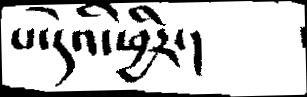པ་དེའི་ཕྱིར་།
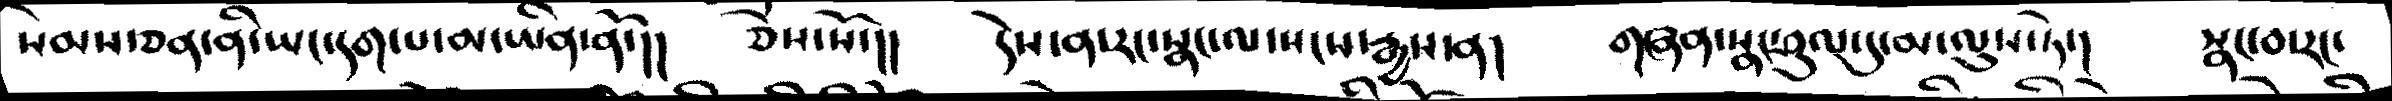སེམས་ཅན་ནི་ཡང་དག་པ་མ་ཡིན་ནོ་།།   ཅེས་སོ་།།    དེས་ན་རང་སྣང་ལ་སངས་རྒྱས་ན།     གཞན་སྣང་ཤུལ་དུ་མ་ལུས་ཏེ་།   སྣང་བ་རང་
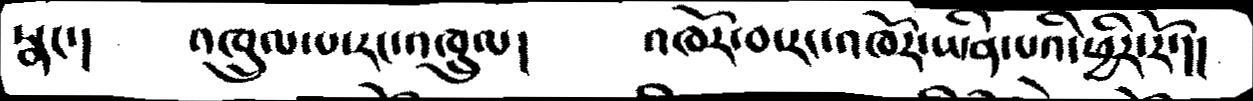སྣང་།        འཁྲུལ་པ་རང་འཁྲུལ།          འཁོར་བ་རང་འཁོར་ཡིན་པའི་ཕྱིར་རོ་།།
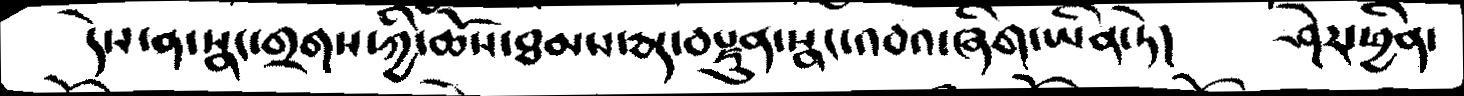དེས་ན་སྣང་གྲགས་ཀྱི་ཆོས་ཐམས་ཅད་བསྫུན་སྣང་འབའ་ཞིག་ཡིན་ཏེ།    ཤེར་ཕྱིན་
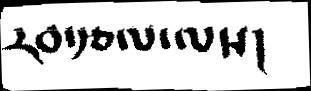རབ་རྩལ་ལས།
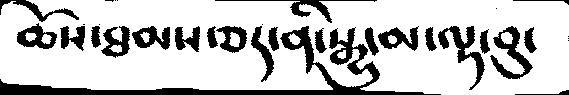ཆོས་ཐམས་ཅད་ནི་སྒྱུ་མ་ལྟ་བུ་
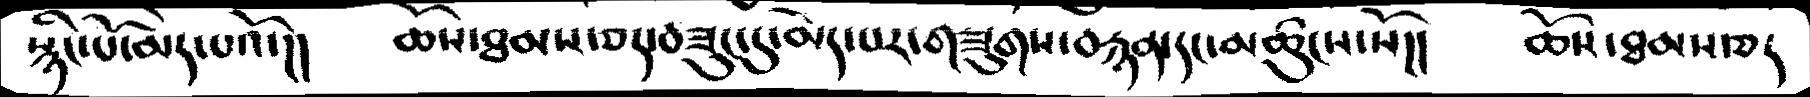སྙིང་པོ་མེད་པའོ་།།    ཆོས་ཐམས་ཅད་བཟུང་དུ་མེད་པར་གཟུགས་བརྙན་དང་མཚུངས་སོ།།   ཆོས་ཐམས་ཅད
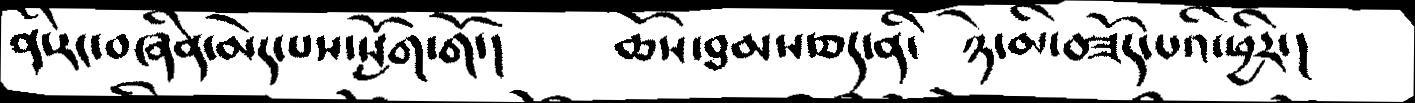ནི་རང་བཞིན་མེད་པས་སློག་གོ་།   ཆོས་ཐམས་ཅད་ནི་   ཉེ་མི་བཟོད་པའི་ཕྱིར་།
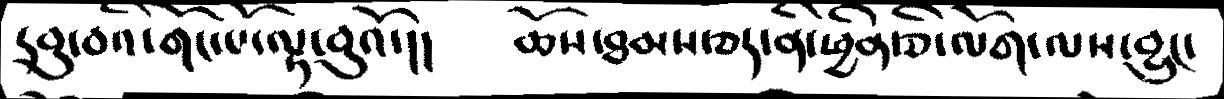དབུ་བའི་གོང་པོ་ལྟ་བུའོ་།།   ཆོས་ཐམས་ཅད་ནི་ཕྱི་ཅི་ལོག་ལས་བྱུང་
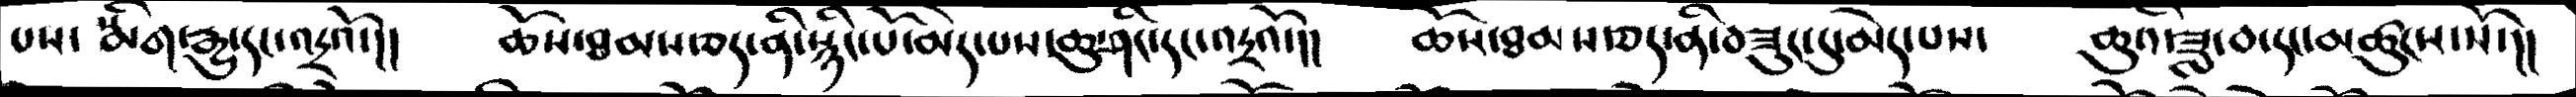པས་  སྨིག་རྒྱུ་དང་འདྲའོ་།།    ཆོས་ཐམས་ཅད་ནི་སྙིང་པོ་མེད་པས་ཆུ་ཤིང་དང་འདྲའོ་།།    ཆོས་ཐམས་ཅད་ནི་བཟུང་དུ་མེད་པས་    ཆུའི་ཟླ་བ་དང་མཚུངས་སོ་།།
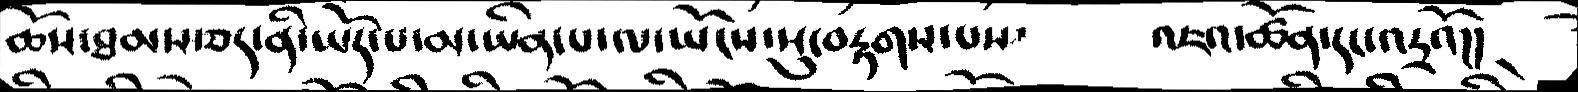ཆོས་ཐམས་ཅད་ནི་ཡོད་པ་མ་ཡིན་པ་ལས་ཡོངས་སུ་བརྟགས་པས་     འཇའ་ཚོན་དང་འདྲའོ།།
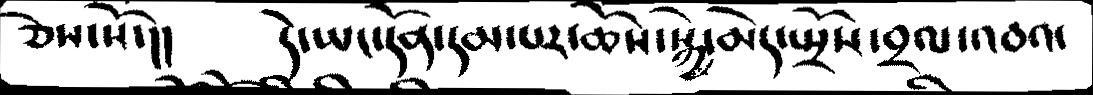ཅེས་སོ་།།     དེ་ཡང་དོན་དམ་པར་ཆོས་སྐྱེ་མེད་སྤྲོས་བྲལ་འབའ་
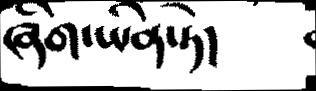ཞིག་ཡིན་ཏེ།
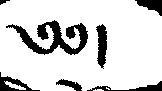༄༅།
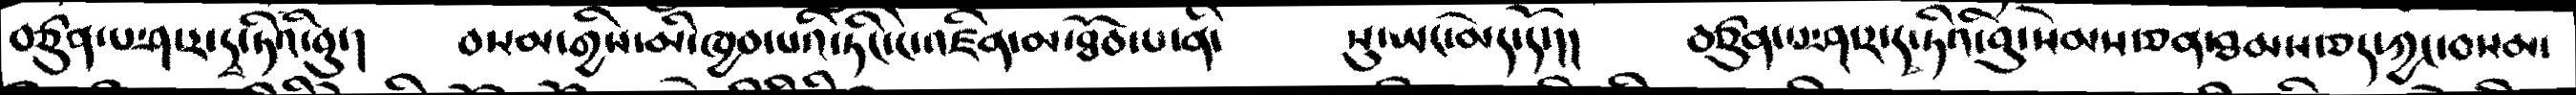བཙུན་པ་ཤ་ར་དྭ་ཏིའི་བུ་།    བསམ་གྱིས་མི་ཁྱབ་པའི་ཏིང་ངེ་འཛིན་མ་ཐོབ་པ་ནི་   སུ་ཡང་མེད་དོ་།།    བཙུན་པ་ཤ་ར་ད་ཏིའི་བུ་སེམས་ཅན་ཐམས་ཅད་ཀྱང་བསམ་
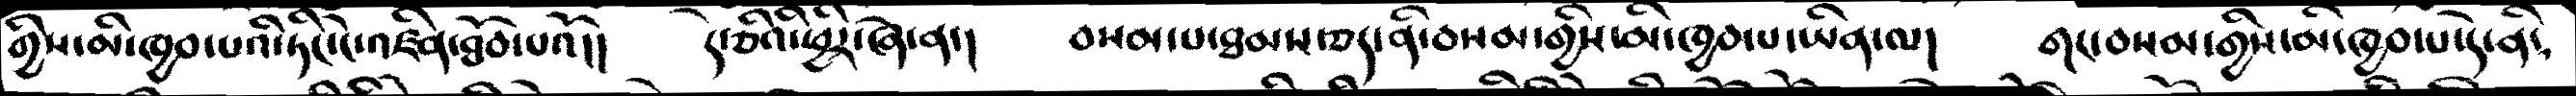གྱིས་མི་ཁྱབ་པའི་ཏིང་ངེ་འཛིན་ཐོབ་པའོ།།  དེ་ཅིའི་ཕྱིར་ཞེ་ན་།   བསམ་པ་ཐམས་ཅད་ནི་བསམ་གྱིས་མི་ཁྱབ་པ་ཡིན་ལ།   གང་བསམ་གྱིས་མི་ཁྱབ་པ་དེ་ནི་
